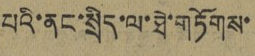པའི་ནང་སྲིད་ལ་ཐེ་གཏོགས་
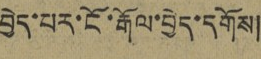བྱེད་པར་ངོ་རྒོལ་བྱེད་དགོས།
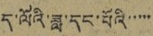ད་ལོའི་ཟླ་དང་པོའི་་་་་
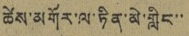ཚེས་མགོར་ལ་ཏིན་མེ་གླིང་་
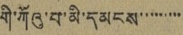གི་ཀོའུ་པ་མི་དམངས་་་་་་་་་
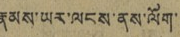རྣམས་ཡར་ལངས་ནས་ལོག་
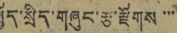སྤྱོད་སྲིད་གཞུང་རྩ་རྫོགས་་་
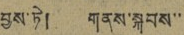བྱས་ཏེ། གནས་སྐབས་་
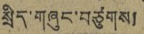སྲིད་གཞུང་བཙུགས།
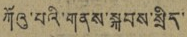ཀོའུ་པའི་གནས་སྐབས་སྲིད་
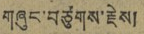གཞུང་བཙུགས་རྗེས།
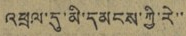འཕྲལ་དུ་མི་དམངས་ཀྱི་རེ་་
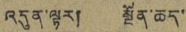འདུན་ལྟར། སྔོན་ཆད་
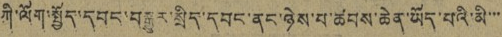ཀི་ལོག་སྤྱོད་དབང་བསྒྱུར་སྲིད་དབང་ནང་ཉེས་པ་ཚབས་ཆེན་ཡོད་པའི་མི་་་
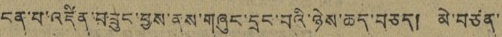ངན་པ་འཛིན་བཟུང་བྱས་ནས་གཞུང་དྲང་བའི་ཉེས་ཆད་བཅད། མེ་བཙན་
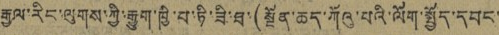རྒྱལ་རིང་ལུགས་ཀྱི་རྒྱུག་ཁྱི་པ་ཏི་ཟི་ཐ་(སྔོན་ཆད་ཀོའུ་པའི་ལོག་སྤྱོད་དབང་
